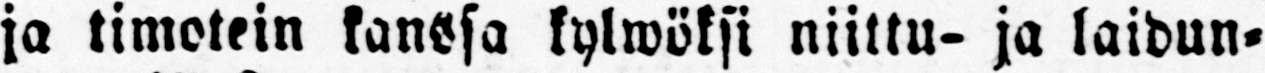ja timotein kanssa kylwöksi niittu- ja laidun-
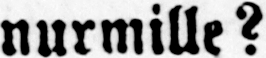nurmille?
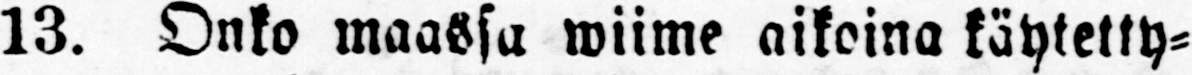13. Onko maassa wiime aikoina käytetty-
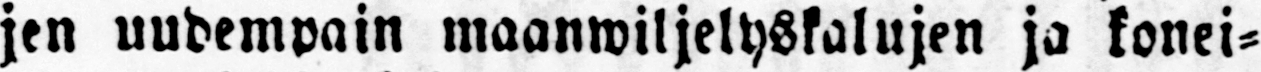jen uudempain maanwiljelyskalujen ja konei-
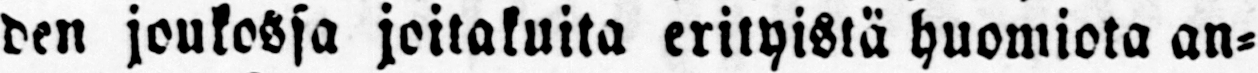den joukossa joitakuita erityistä huomiota an-
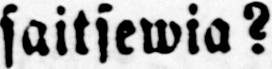saitsewia?
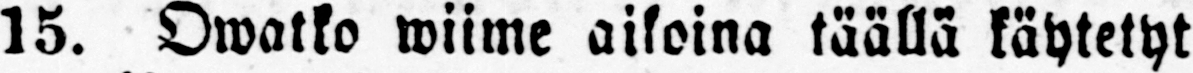15. Owatko wiime aikoina täällä käytetyt
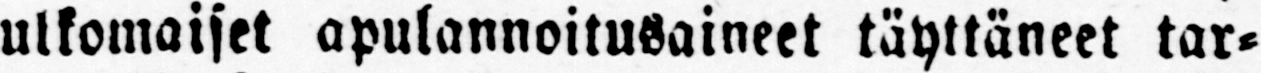ulkomaiset apulannoitusaineet täyttäneet tar-
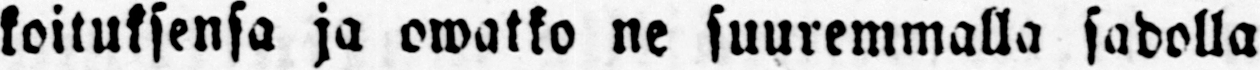koituksensa ja owatko ne suuremmalla sadolla
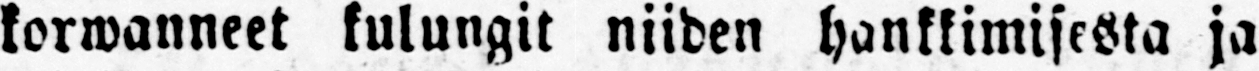korwanneet kulungit niiden hankkimisesta ja
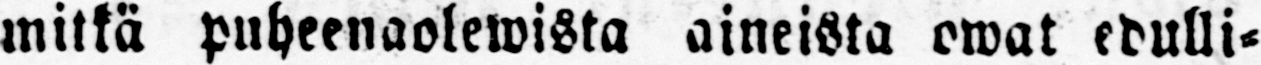mitkä puheenaolewista aineista owat edulli-
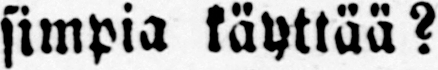simpia käyttää?
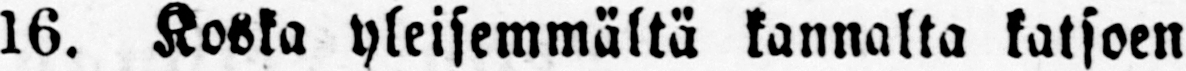16. Koska yleisemmällä kannalta katsoen
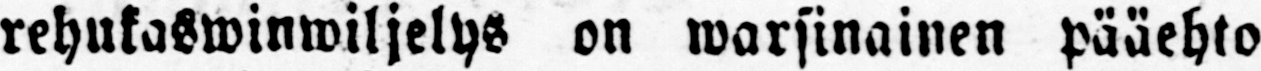rehukaswinwiljelys on warsinainen pääehto
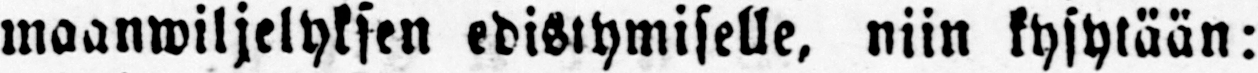maanwiljelyksen edistymiselle, niin kysytään:
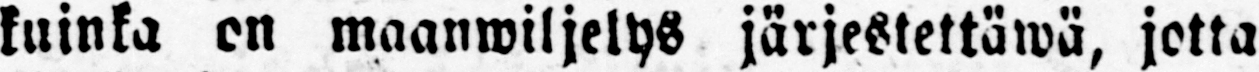kuinka on maanwiljelys järjestettäwä, jotta
